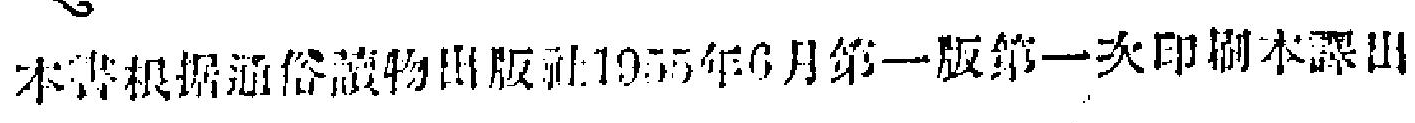本書根据通俗讀物出版社1955年6月第一版第一次印刷本譯出
